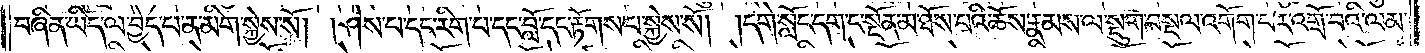བཞིན་ཡིད་ལ་བྱེད་པ་ན་མིག་སྐྱེས་སོ། །ཤེས་པ་དང་རིག་པ་དང་བློ་དང་རྟོགས་པ་སྐྱེས་སོ། །དགེ་སློང་དག་ང་སྔོན་མ་ཐོས་པའི་ཆོས་རྣམས་ལ་སྡུག་བསྔལ་འགོག་པར་འགྲོ་བའི་ལམ་
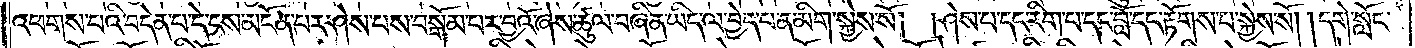འཕགས་པའི་བདེན་པ་དེ་ངས་མངོན་པར་ཤེས་པས་བསྒོམ་པར་བྱའོ་ཞེས་ཚུལ་བཞིན་ཡིད་ལ་བྱེད་པ་ན་མིག་སྐྱེས་སོ། །ཤེས་པ་དང་རིག་པ་དང་བློ་དང་རྟོགས་པ་སྐྱེས་སོ། །དགེ་སློང་
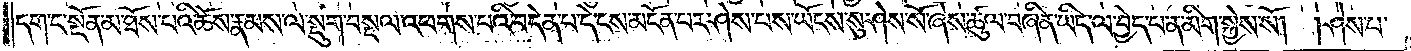དག་ང་སྔོན་མ་ཐོས་པའི་ཆོས་རྣམས་ལ་སྡུག་བསྔལ་འཕགས་པའི་བདེན་པ་དེ་ངས་མངོན་པར་ཤེས་པས་ཡོངས་སུ་ཤེས་སོ་ཞེས་ཚུལ་བཞིན་ཡིད་ལ་བྱེད་པ་ན་མིག་སྐྱེས་སོ། །ཤེས་པ་
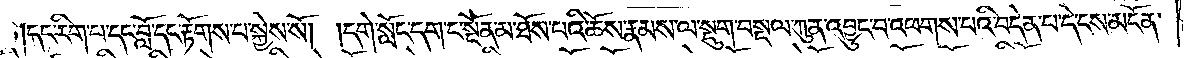དང་རིག་པ་དང་བློ་དང་རྟོགས་པ་སྐྱེས་སོ། །དགེ་སློང་དག་ང་སྔོན་མ་ཐོས་པའི་ཆོས་རྣམས་ལ་སྡུག་བསྔལ་ཀུན་འབྱུང་བ་འཕགས་པའི་བདེན་པ་དེ་ངས་མངོན་
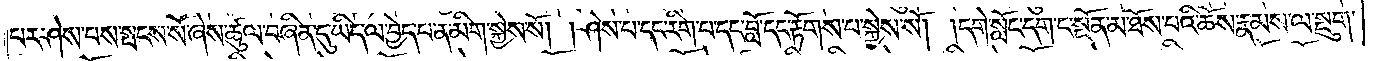པར་ཤེས་པས་སྤངས་སོ་ཞེས་ཚུལ་བཞིན་དུ་ཡིད་ལ་བྱེད་པ་ན་མིག་སྐྱེས་སོ། །ཤེས་པ་དང་རིག་པ་དང་བློ་དང་རྟོགས་པ་སྐྱེས་སོ། །དགེ་སློང་དག་ང་སྔོན་མ་ཐོས་པའི་ཆོས་རྣམས་ལ་སྡུག་
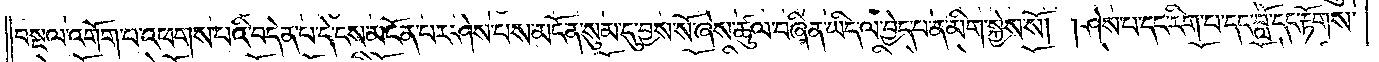བསྔལ་འགོག་པ་འཕགས་པའི་བདེན་པ་དེ་ངས་མངོན་པར་ཤེས་པས་མངོན་སུམ་དུ་བྱས་སོ་ཞེས་ཚུལ་བཞིན་ཡིད་ལ་བྱེད་པ་ན་མིག་སྐྱེས་སོ། །ཤེས་པ་དང་རིག་པ་དང་བློ་དང་རྟོགས་
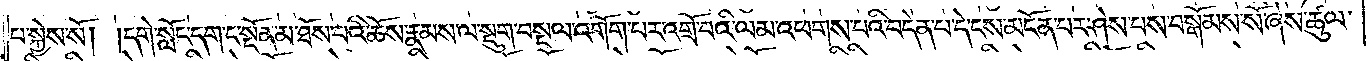པ་སྐྱེས་སོ། །དགེ་སློང་དག་ང་སྔོན་མ་ཐོས་པའི་ཆོས་རྣམས་ལ་སྡུག་བསྔལ་འགོག་པར་འགྲོ་བའི་ལམ་འཕགས་པའི་བདེན་པ་དེ་ངས་མངོན་པར་ཤེས་པས་བསྒོམས་སོ་ཞེས་ཚུལ་
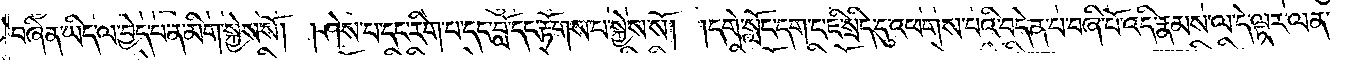བཞིན་ཡིད་ལ་བྱེད་པ་ན་མིག་སྐྱེས་སོ། །ཤེས་པ་དང་རིག་པ་དང་བློ་དང་རྟོགས་པ་སྐྱེས་སོ། །དགེ་སློང་དག་ཇི་སྲིད་དུ་འཕགས་པའི་བདེན་པ་བཞི་པོ་འདི་རྣམས་ལ་དེ་ལྟར་ལན་
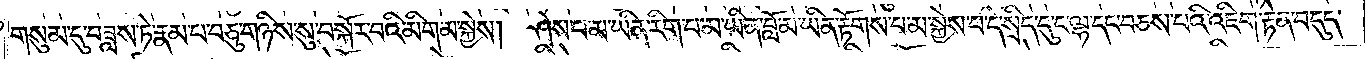གསུམ་དུ་བཟླས་ཏེ་རྣམ་པ་བཅུ་གཉིས་སུ་བསྐོར་བའི་མིག་མ་སྐྱེས། ཤེས་པ་མ་ཡིན་རིག་པ་མ་ཡིན་བློ་མ་ཡིན་རྟོགས་པ་མ་སྐྱེས་པ་དེ་སྲིད་དུ་ང་ལྷ་དང་བཅས་པའི་འཇིག་རྟེན་བདུད་
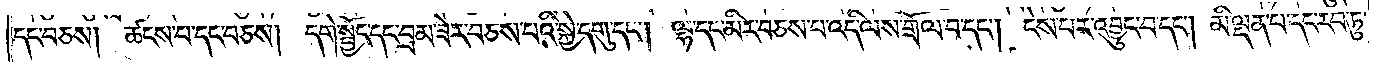དང་བཅས། ཚངས་པ་དང་བཅས། དགེ་སྦྱོང་དང་བྲམ་ཟེར་བཅས་པའི་སྐྱེ་དགུ་དང༌། ལྷ་དང་མིར་བཅས་པ་འདི་ལས་གྲོལ་བ་དང༌། ངེས་པར་འབྱུང་བ་དང༌། མི་ལྡན་པ་དང་རབ་ཏུ་
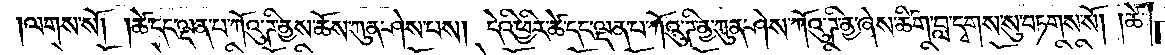།ལགས་སོ། །ཚེ་དང་ལྡན་པ་ཀོའུ་ཌི་ནྱས་ཆོས་ཀུན་ཤེས་པས། དེའི་ཕྱིར་ཚེ་དང་ལྡན་པ་ཀོའུ་ཌིནྱ་ཀུན་ཤེས་ཀོའུ་ཌིནྱ་ཞེས་ཚིག་བླ་དྭགས་སུ་བཏགས་སོ། །ཚེ་
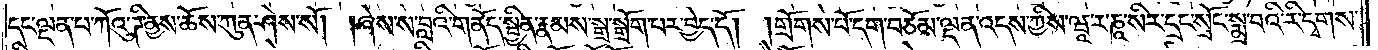དང་ལྡན་པ་ཀོའུ་ཌི་ནྱས་ཆོས་ཀུན་ཤེས་སོ། །ཞེས་ས་བླའི་གནོད་སྦྱིན་རྣམས་སྒྲ་སྒྲོག་པར་བྱེད་དོ། །གྲོགས་པོ་དག་བཅོམ་ལྡན་འདས་ཀྱིས་ཝཱ་ར་ཎཱ་སིར་དྲང་སྲོང་སྨྲ་བའི་རི་དྭགས་
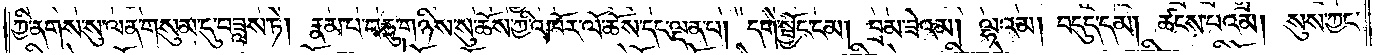ཀྱི་ནགས་སུ་ལན་གསུམ་དུ་བཟླས་ཏེ། རྣམ་པ་བཅུ་གཉིས་སུ་ཆོས་ཀྱི་འཁོར་ལོ་ཆོས་དང་ལྡན་པ། དགེ་སྦྱོང་ངམ། བྲམ་ཟེའམ། ལྷའམ། བདུད་དམ། ཚངས་པའམ། སུས་ཀྱང་
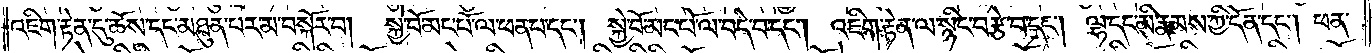འཇིག་རྟེན་དུ་ཆོས་དང་མཐུན་པར་མ་བསྐོར་བ། སྐྱེ་བོ་མང་པོ་ལ་ཕན་པ་དང༌། སྐྱེ་བོ་མང་པོ་ལ་བདེ་བ་དང༌། འཇིག་རྟེན་ལ་སྙིང་བརྩེ་བ་དང༌། ལྷ་དང་མི་རྣམས་ཀྱི་དོན་དང༌། ཕན་
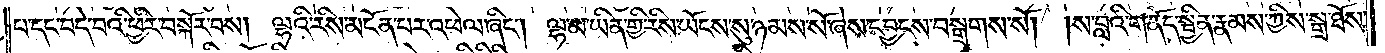པ་དང་བདེ་བའི་ཕྱིར་བསྐོར་བས། ལྷའི་རིས་མངོན་པར་འཕེལ་ཞིང༌། ལྷ་མ་ཡིན་གྱི་རིས་ཡོངས་སུ་ཉམས་སོ་ཞེས་དབྱངས་བསྒྲགས་སོ། །ས་བླའི་གནོད་སྦྱིན་རྣམས་ཀྱིས་སྒྲ་ཐོས་
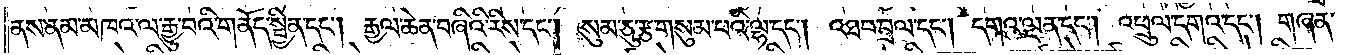ནས་ནམ་མཁའ་ལ་རྒྱུ་བའི་གནོད་སྦྱིན་དང༌། རྒྱལ་ཆེན་བཞིའི་རིས་དང༌། སུམ་ཅུ་རྩ་གསུམ་པའི་ལྷ་དང༌། འཐབ་བྲལ་དང༌། དགའ་ལྡན་དང༌། འཕྲུལ་དགའ་དང༌། གཞན་
